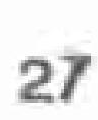27
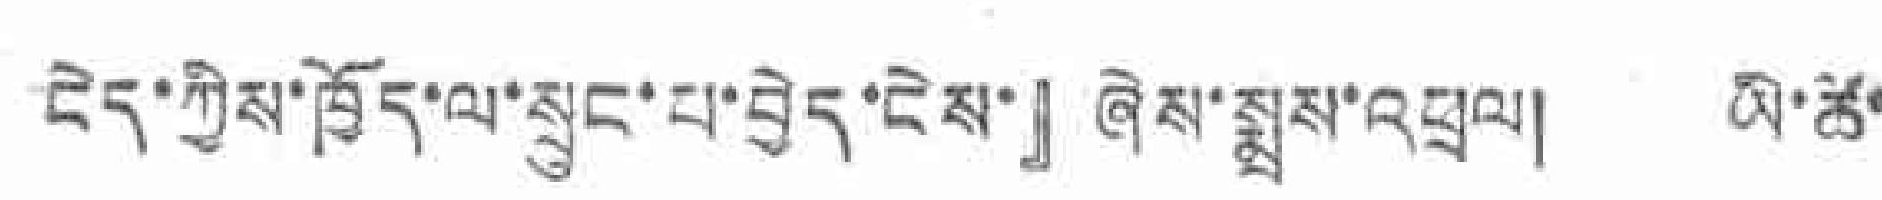ངེད་ཀྱིས་ཁྱོད་ལ་སྲུང་པ་བྱེད་ངེས་』ཞེས་སྨྲས་འཕྲལ། ཡི་ཚོ་
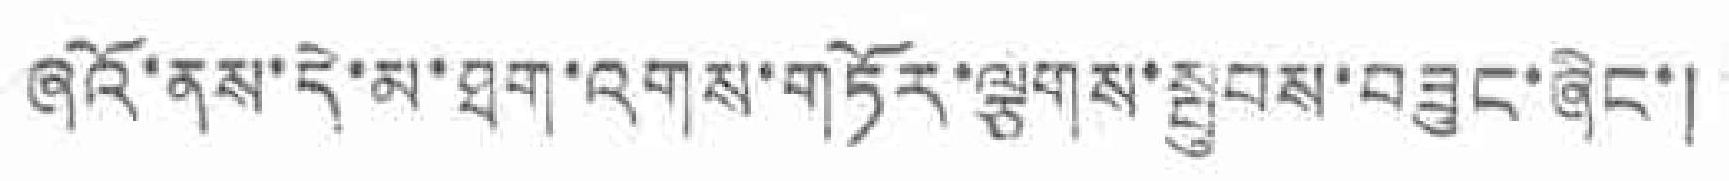ཞའོ་ནས་དེ་མ་ཐག་འགས་གཏོར་ལྕགས་སྦུབས་བཟུང་ཞིང་།
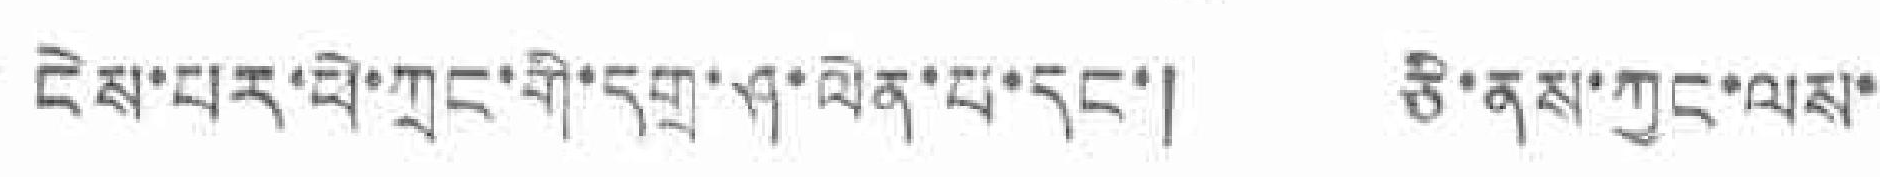ངེས་པར་ཕེ་ཀྲང་གི་དགྲ་ཤ་ལེན་པ་དང་། ཅི་ནས་ཀྱང་ལས་
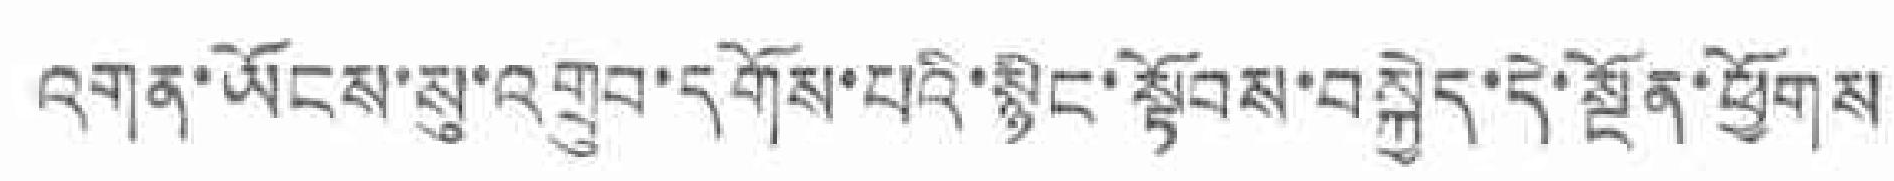འགན་ཡོངས་སུ་འགྲུབ་དགོས་པའི་སྙིང་སྟོབས་བསྐྱེད་དེ་སྔོན་ཕྱོགས
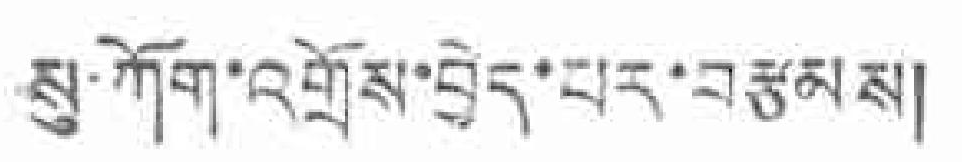སུ་ཀོག་འགྲོས་བྱེད་པར་བརྩམས།
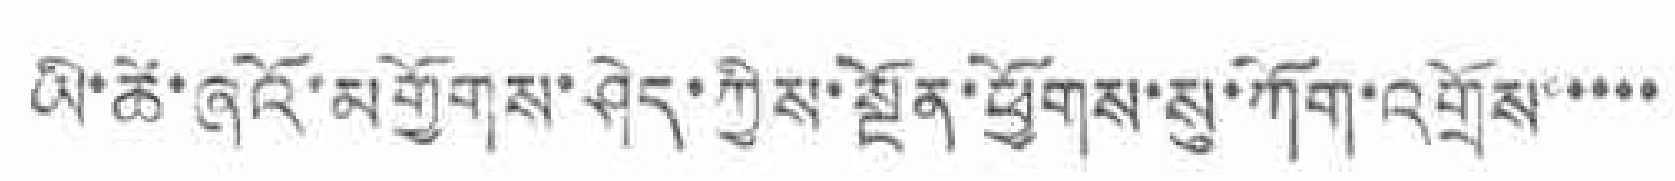ཡི་ཚེ་ཞའོ་མགྱོགས་ཤེད་ཀྱིས་སྔོན་ཕྱོགས་སུ་ཀོག་འགྲོས་་་་་
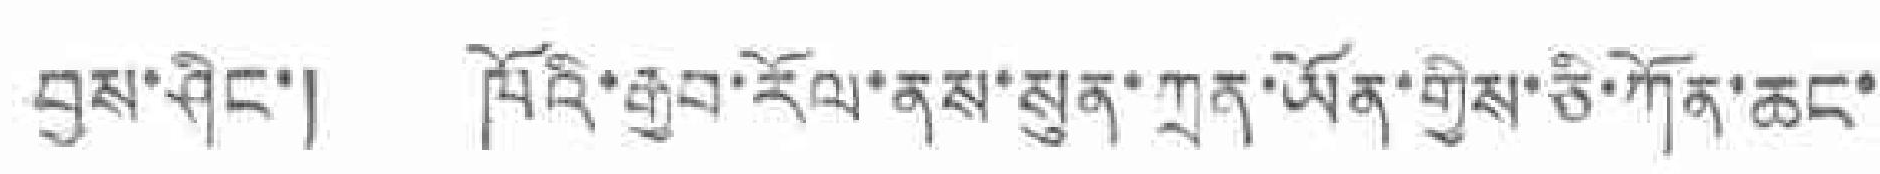བྱས་ཤིང་། ཁོའི་རྒྱབ་རོལ་ནས་སུན་ཀྲན་ཡོན་གྱིས་ཅི་ཀོན་ཆང་
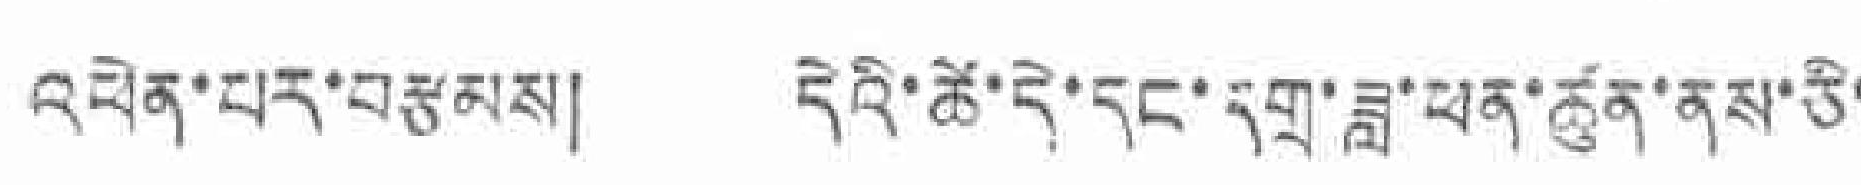འཕེན་པར་བརྩམས། དེའི་ཚེ་དེ་དང་དགྲ་ཟླ་ཕན་ཚུན་ནས་ཅི་
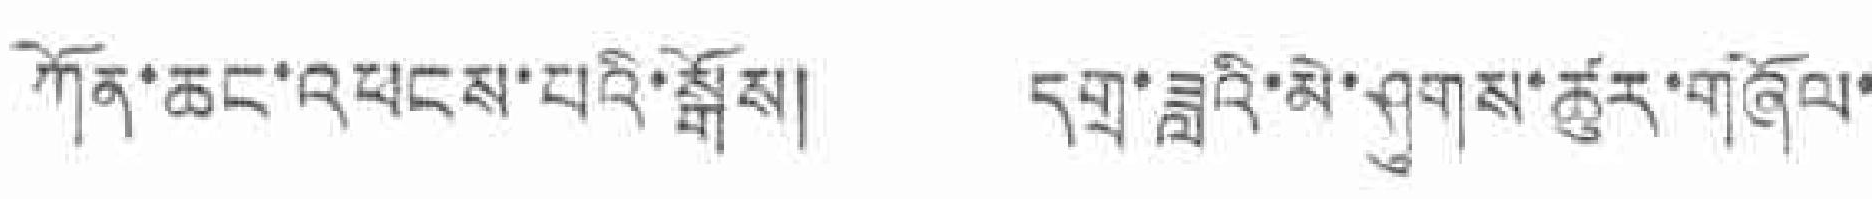ཀོན་ཆང་འཕངས་པའི་སྒོས། དགྲ་ཟླའི་མེ་ཤུགས་ཚུར་གཞོལ་
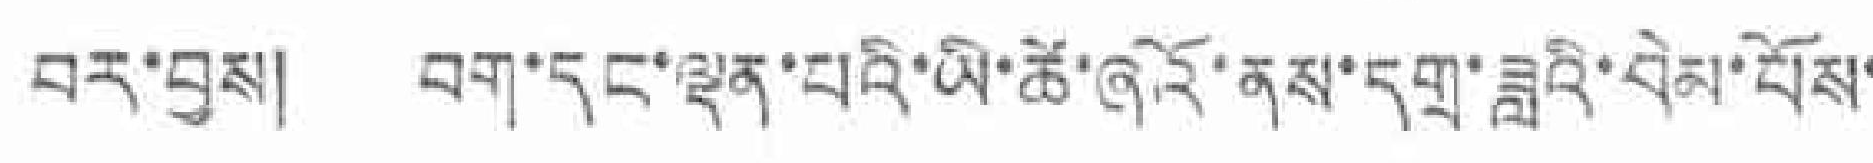བར་བྱས། བག་དང་ལྡན་པའི་ཡི་ཚེ་ཞའོ་ནས་དགྲ་ཟླའི་བེམ་པོས་
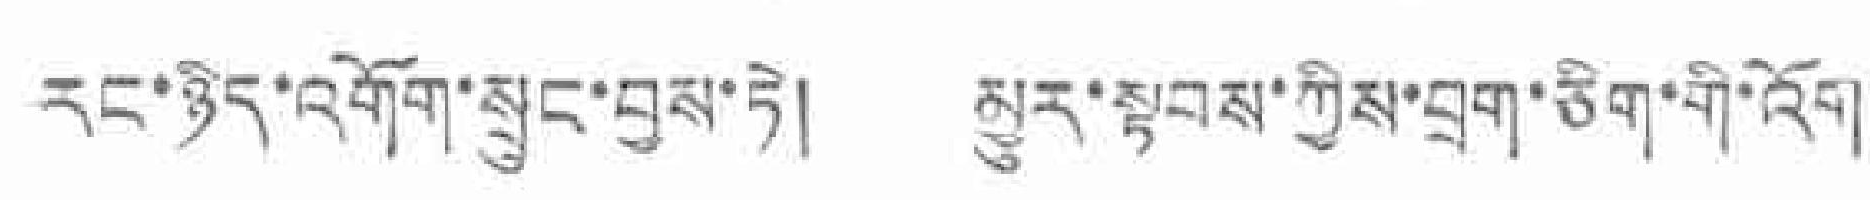རང་ཉིད་འགོག་སྲུང་བྱས་ཏེ། མྱུར་སྟབས་ཀྱིས་བྲག་ཅིག་གི་འོག་
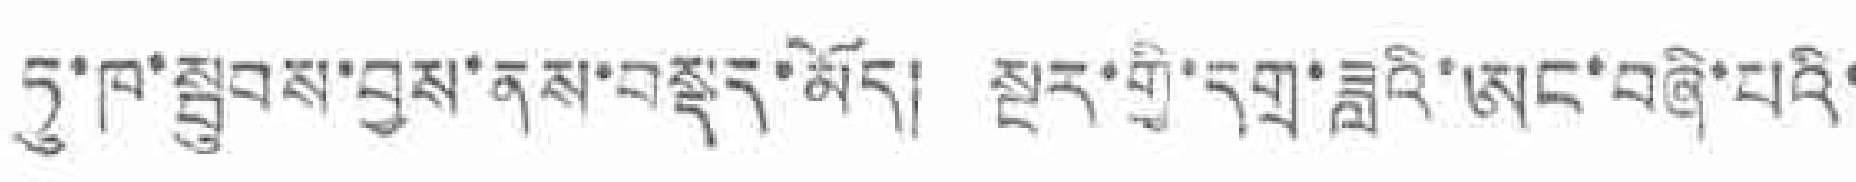ཏུ་ཁ་སྦུབས་བྱས་ནས་བསྡད་མོད། སྔར་གྱི་དགྲ་ཟླའི་ཨང་བཞི་པའི་
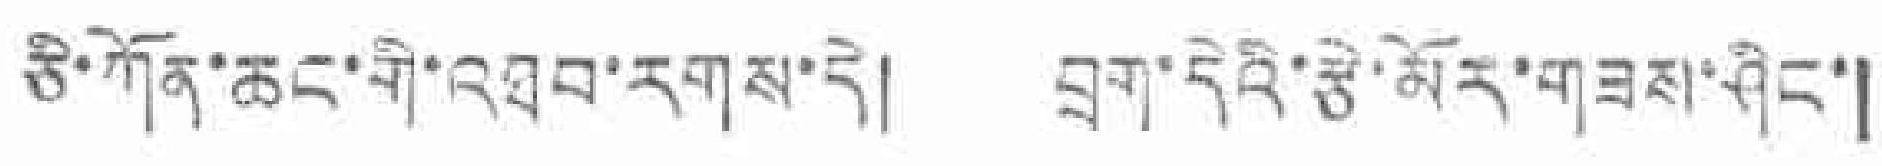ཅི་ཀོན་ཆུང་གི་འཐབ་རགས་དེ། བྲག་དེའི་རྩེ་མོར་གཟས་ཤིང་།
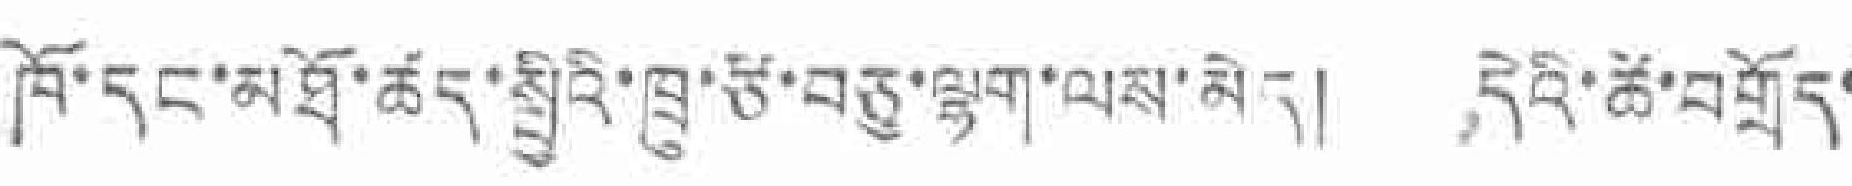ཁོ་དང་མཐོ་ཚད་སྤྱིའི་ཁྲུ་ཙི་བཅུ་ལྷག་ལས་མེད། དེའི་ཆོ་བགྲོད་
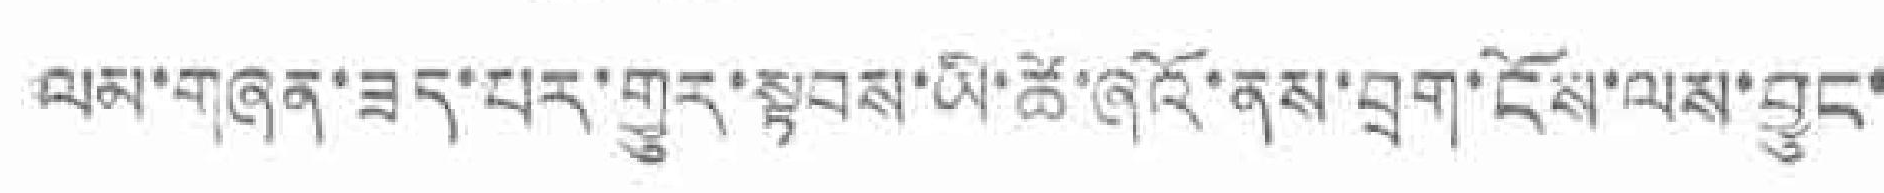ལམ་གཞན་ཟད་པར་གྱུར་སྟབས་ཡི་ཚེ་ཞའོ་ནས་བྲག་ངོས་ལས་བྱུང་
